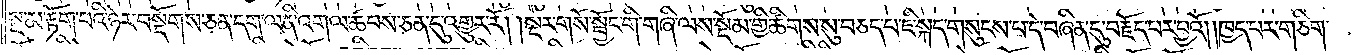སྔ་མ་རྟོག་པའི་ཉེར་བསྡོགས་ཅན་དག་ལ་ནི་འགལ་ཚབས་ཅན་དུ་འགྱུར་རོ། །སྔར་གསོ་སྦྱོང་གི་གཞི་ལས་སྡོམ་གྱི་ཚིགས་སུ་བཅད་པ་ཇི་སྐད་གསུངས་པ་དེ་བཞིན་དུ་བརྗོད་པར་བྱའོ། །ཁྱད་པར་གཅིག་
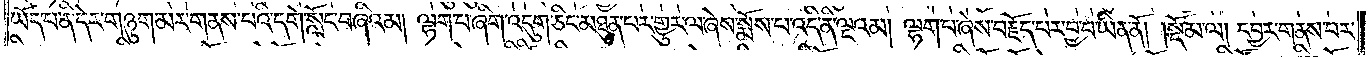ཡོད་པ་ནི་དེར་གཉུག་མར་གནས་པའི་དགེ་སློང་བཞིའམ། ལྷག་པ་ཞིག་འདུག་ཅིང་མཐུན་པར་གྱུར་ལ་ཞེས་སྨོས་པ་འདི་ནི་ལྔའམ། ལྷག་པ་ཞེས་བརྗོད་པར་བྱ་བ་ཡིན་ནོ།    །སྡོམ་ལ། དབྱར་གནས་པར་
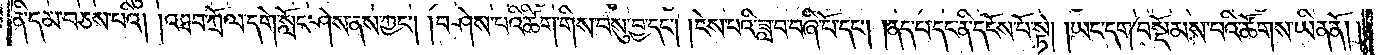ནི་དམ་བཅས་པའི། །འཐབ་ཀྲོལ་དགེ་སློང་ཤེས་ནས་ཀྱང༌། །བཤེས་པའི་ཚིག་གིས་བསུ་བྱ་དང༌། །ངེས་པའི་ཟླ་བ་བཞི་པོ་དང༌། །ནད་པ་དང་ནི་དངོས་པོ་སྟེ། །ཡང་དག་བསྡོམས་པའི་ཚོགས་ཡིན་ནོ། །
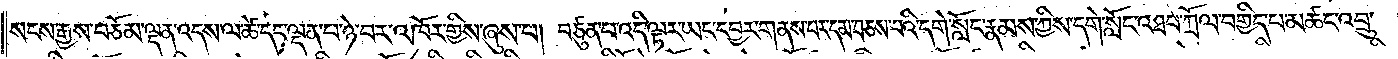སངས་རྒྱས་བཅོམ་ལྡན་འདས་ལ་ཚེ་དང་ལྡན་པ་ཉེ་བར་འཁོར་གྱིས་ཞུས་པ། བཙུན་པ་འདི་ལྟར་ཡང་དབྱར་གནས་པར་དམ་བཅས་པའི་དགེ་སློང་རྣམས་ཀྱིས་དགེ་སློང་འཐབ་ཀྲོལ་བགྱིད་པ་མཚང་འབྲུ་
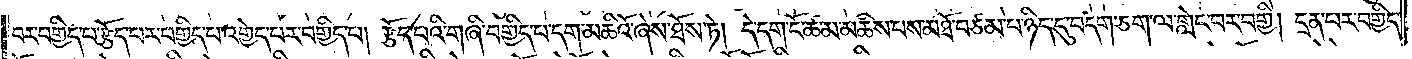བར་བགྱིད་པ་རྩོད་པར་བགྱིད་པ་འགྱེད་པར་བགྱིད་པ། རྩོད་པའི་གཞི་བགྱིད་པ་དག་མཆིའོ་ཞེས་ཐོས་ཏེ། དེ་དག་ངོ་ཚ་མ་མཆིས་པས་མཐོ་བཙམ་པ་ཉིད་དུ་བདག་ཅག་ལ་གླེང་བར་བགྱི། དྲན་པར་བགྱིད་
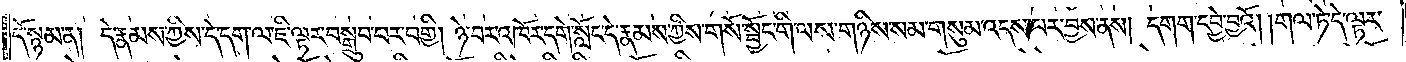དོ་སྙམ་ན། དེ་རྣམས་ཀྱིས་དེ་དག་ལ་ཇི་ལྟར་བསྒྲུབ་པར་བགྱི། ཉེ་བར་འཁོར་དགེ་སློང་དེ་རྣམས་ཀྱིས་གསོ་སྦྱོང་གི་ལས་གཉིས་སམ་གསུམ་འདས་པར་བྱས་ནས། དགག་དབྱེ་བྱའོ། །གལ་ཏེ་དེ་ལྟར་
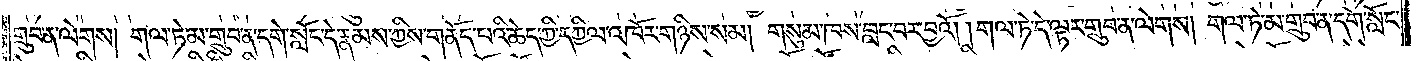གྲུབ་ན་ལེགས། གལ་ཏེ་མ་གྲུབ་ན་དགེ་སློང་དེ་རྣམས་ཀྱིས་གནོད་པའི་ཆེད་ཀྱི་དཀྱིལ་འཁོར་གཉིས་སམ། གསུམ་ཁས་བླང་བར་བྱའོ། །གལ་ཏེ་དེ་ལྟར་གྲུབ་ན་ལེགས། གལ་ཏེ་མ་གྲུབ་ན་དགེ་སློང་
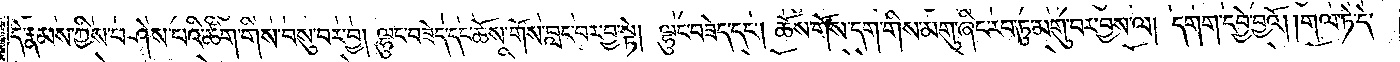དེ་རྣམས་ཀྱིས་བཤེས་པའི་ཚིག་གིས་བསུ་བར་བྱ། ལྷུང་བཟེད་དང་ཆོས་གོས་བླང་བར་བྱ་སྟེ། ལྷུང་བཟེད་དང༌། ཆོས་གོས་དག་གིས་མགུ་ཞིང་རབ་ཏུ་མགུ་བར་བྱས་ལ། དགག་དབྱེ་བྱའོ། །གལ་ཏེ་དེ་
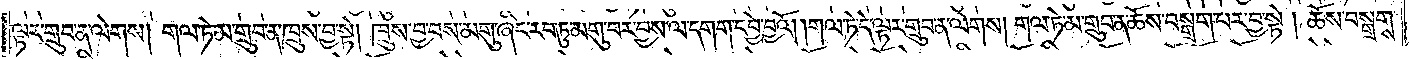ལྟར་གྲུབ་ན་ལེགས། གལ་ཏེ་མ་གྲུབ་ན་ཁྲུས་བྱ་སྟེ། ཁྲུས་བྱ་བས་མགུ་ཞིང་རབ་ཏུ་མགུ་བར་བྱས་ལ་དགག་དབྱེ་བྱའོ། །གལ་ཏེ་དེ་ལྟར་གྲུབ་ན་ལེགས། གལ་ཏེ་མ་གྲུབ་ན་ཆོས་བསྒྲག་པར་བྱ་སྟེ། ཆོས་བསྒྲགས་
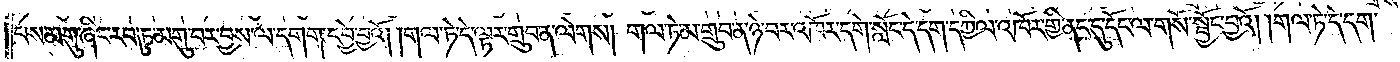པས་མགུ་ཞིང་རབ་ཏུ་མགུ་བར་བྱས་ལ་དགག་དབྱེ་བྱའོ། །གལ་ཏེ་དེ་ལྟར་གྲུབ་ན་ལེགས། གལ་ཏེ་མ་གྲུབ་ན་ཉེ་བར་འཁོར་དགེ་སློང་དེ་དག་དཀྱིལ་འཁོར་གྱི་ནང་དུ་དོང་ལ་གསོ་སྦྱོང་བྱའོ། །གལ་ཏེ་དེ་དག་
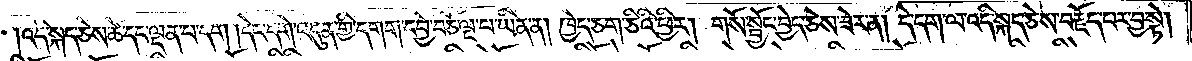འདི་སྐད་ཅེས་ཚེ་དང་ལྡན་པ་དག །དེང་དགེ་འདུན་གྱི་དགག་དབྱེ་བཅོ་ལྔ་པ་ཡིན་ན། ཁྱེད་ཅག་ཅིའི་ཕྱིར། གསོ་སྦྱོང་བྱེད་ཅེས་ཟེར་ན། དེ་དག་ལ་འདི་སྐད་ཅེས་བརྗོད་པར་བྱ་སྟེ།
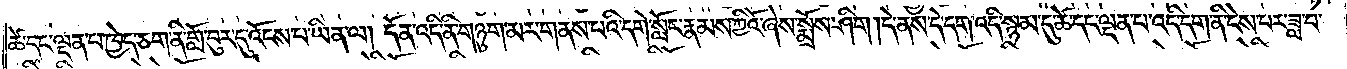ཚེ་དང་ལྡན་པ་ཁྱེད་ཅག་ནི་གློ་བུར་དུ་འོངས་པ་ཡིན་ལ། དོན་འདི་ནི་གཉུག་མར་གནས་པའི་དགེ་སློང་རྣམས་ཀྱིའོ་ཞེས་སྨྲོས་ཤིག །དེ་ནས་དེ་དག་འདི་སྙམ་དུ་ཚེ་དང་ལྡན་པ་འདི་དག་ནི་ངེས་པར་ཟླ་བ་
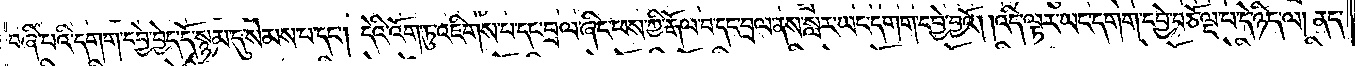བཞི་པའི་དགག་དབྱེ་བྱེད་དོ་སྙམ་དུ་སེམས་པ་དང༌། དེའི་འོག་ཏུ་འཇིགས་པ་དང་བྲལ་ཞིང་ཕས་ཀྱི་རྒོལ་བ་དང་བྲལ་ནས་སླར་ཡང་དགག་དབྱེ་བྱའོ། །འདི་ལྟར་ཡང་དགག་དབྱེ་བཅོ་ལྔ་པ་དེ་ཉིད་ལ། ནད་
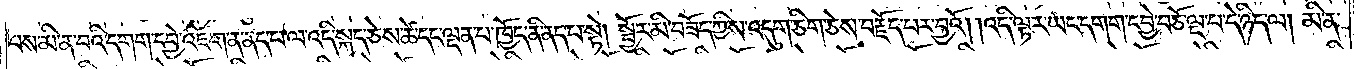པས་མི་ན་བའི་དགག་དབྱེ་འཇོག་ན་ནད་པ་ལ་འདི་སྐད་ཅེས་ཚེ་དང་ལྡན་པ་ཁྱོད་ནི་ནད་པ་སྟེ། སྦྱོར་མི་བཟོད་ཀྱིས་འདུག་ཅིག་ཅེས་བརྗོད་པར་བྱའོ། །འདི་ལྟར་ཡང་དགག་དབྱེ་བཅོ་ལྔ་པ་དེ་ཉིད་ལ། མི་ན་
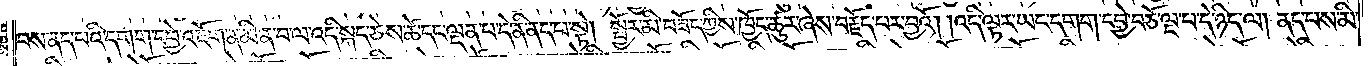བས་ནད་པའི་དགག་དབྱེ་འཇོག་ན་མི་ན་བ་ལ་འདི་སྐད་ཅེས་ཚེ་དང་ལྡན་པ་དེ་ནི་ནད་པ་སྟེ། སྦྱོར་མི་བཟོད་ཀྱིས་ཁྱོད་ཚུར་ཞེས་བརྗོད་པར་བྱའོ། །འདི་ལྟར་ཡང་དགག་དབྱེ་བཅོ་ལྔ་པ་དེ་ཉིད་ལ། ནད་པས་མི་
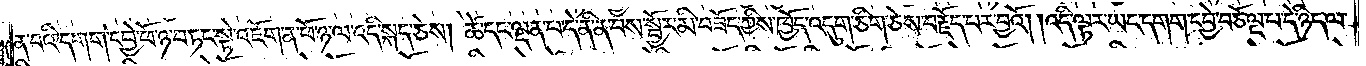ན་བའི་དགག་དབྱེ་ཕོ་ཉ་བཏང་སྟེ་འཇོག་ན་ཕོ་ཉ་ལ་འདི་སྐད་ཅེས། ཚེ་དང་ལྡན་པ་དེ་ནི་ན་བས་སྦྱོར་མི་བཟོད་ཀྱིས་ཁྱོད་འདུག་ཅིག་ཅེས་བརྗོད་པར་བྱའོ། །འདི་ལྟར་ཡང་དགག་དབྱེ་བཅོ་ལྔ་པ་དེ་ཉིད་ལ་
